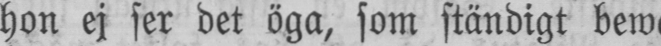hon ej ser det öga, som ständigt bewa-
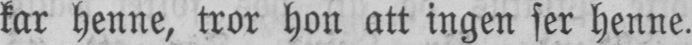kar henne, tror hon att ingen ser henne.
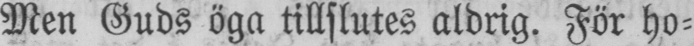Men Guds öga tillslutes aldrig. För ho-
